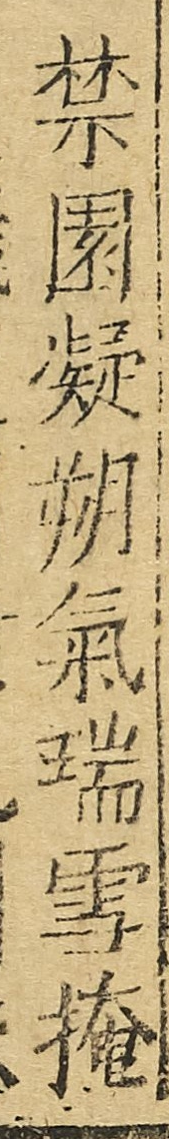禁園凝朔氣瑞雪掩
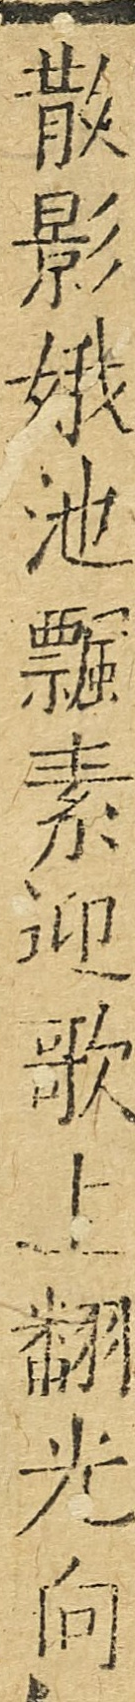散影娥池飄素迎歌上翻光向
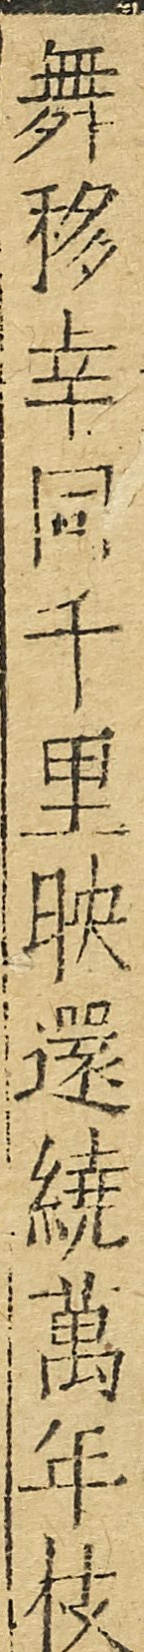舞移幸因千里映還繞萬年枝
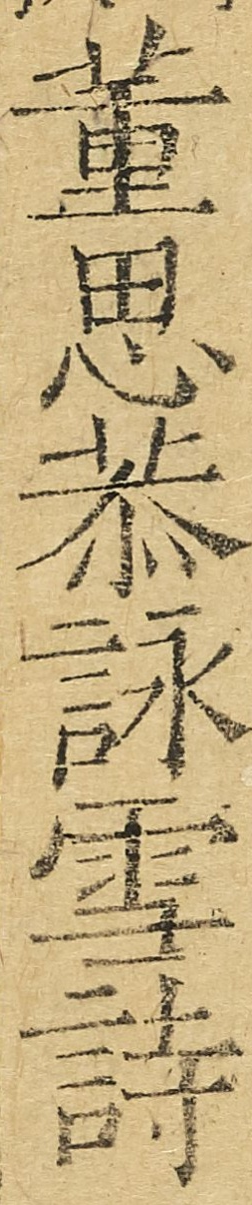董思恭詠雪詩
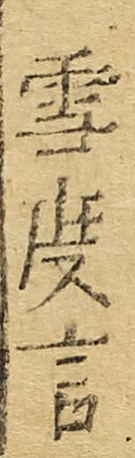雪度言
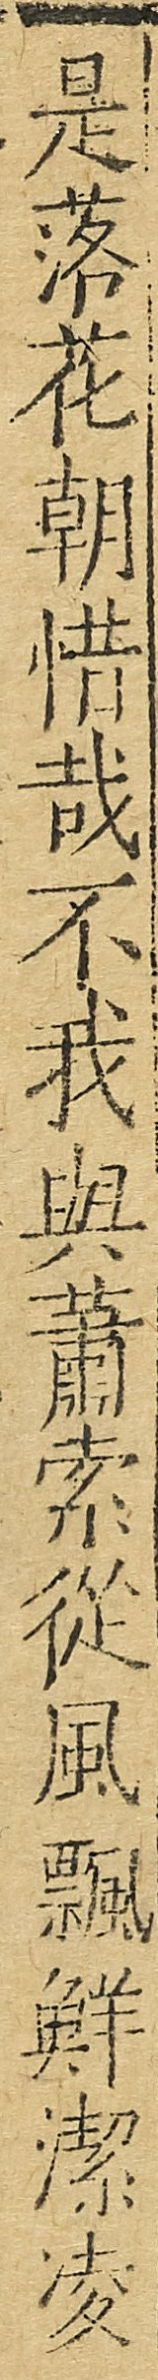是落花朝惜哉不我與蕭索從風飄鮮潔凌
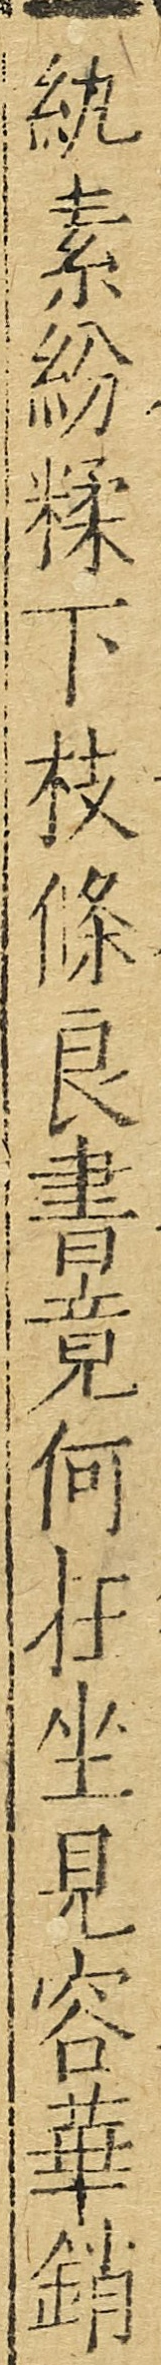紈素紛糅下枝條良書竟何在坐見容華銷
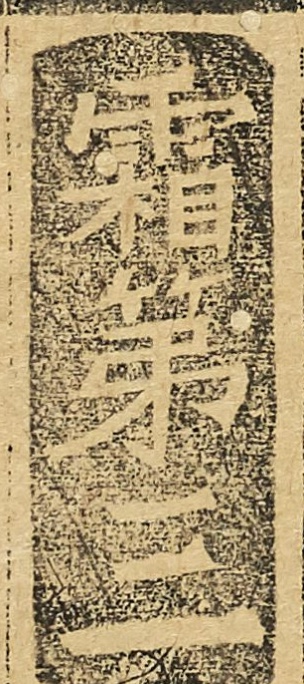霜第三
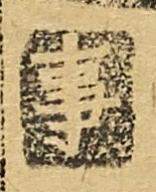事
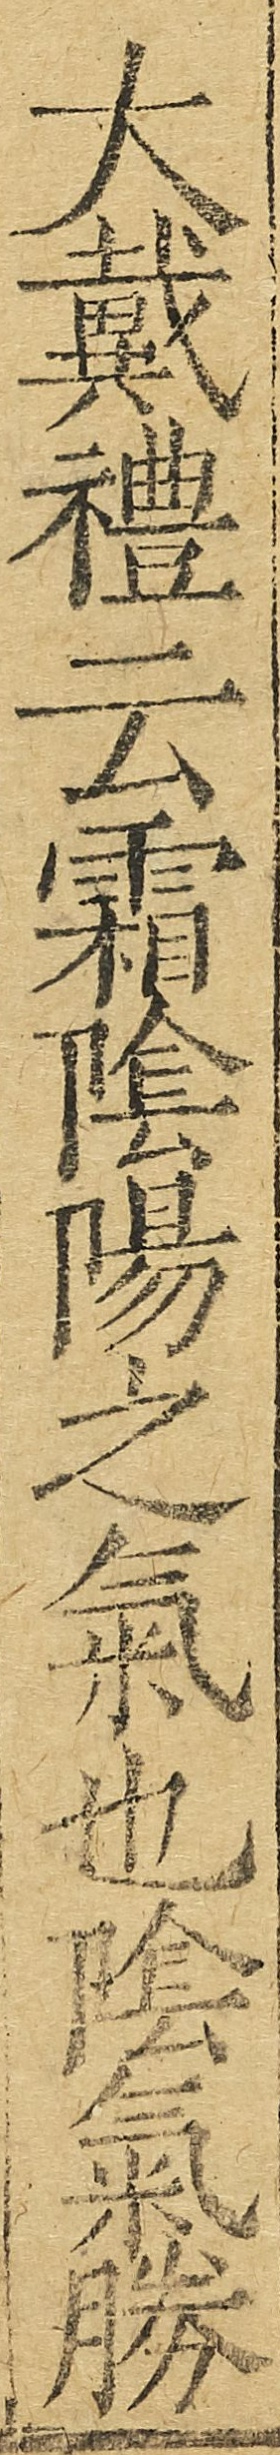大戴禮云霜陰陽之氣也陰氣勝
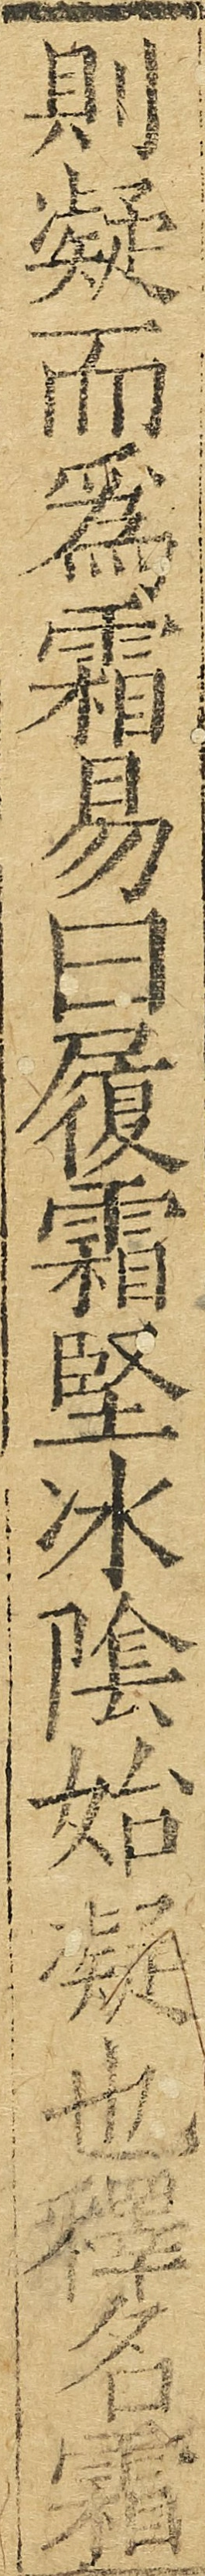則凝而爲霜易曰履霜堅冰陰始凝也釋名霜
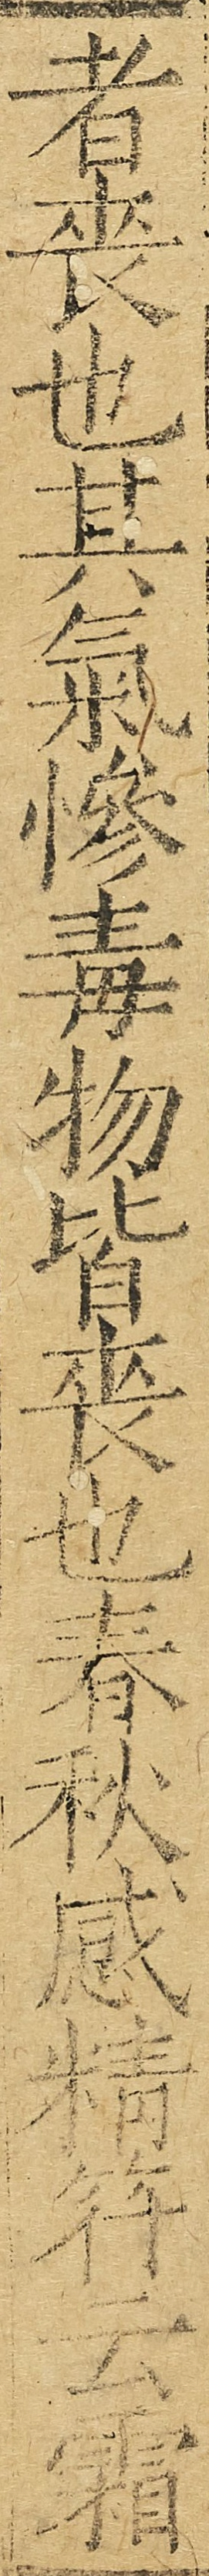者喪也其氣慘毒物皆喪也春秋感精符云霜
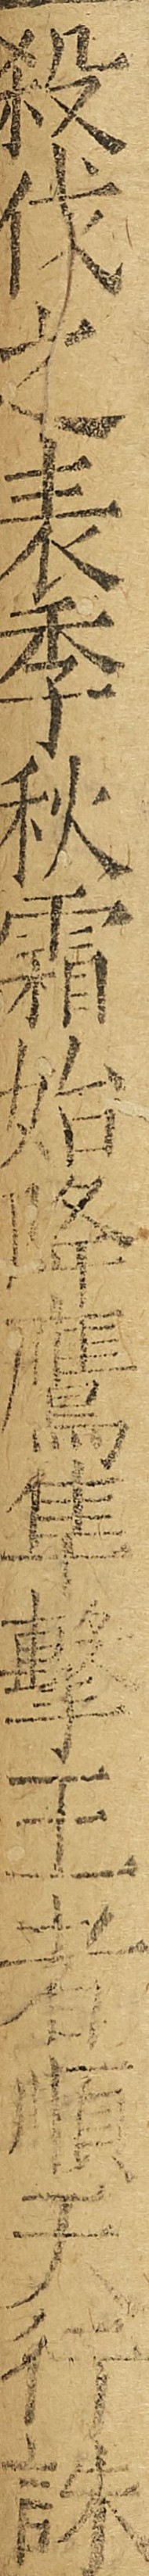殺伐之表季秋霜始降鷹隼擊王者順天行誅
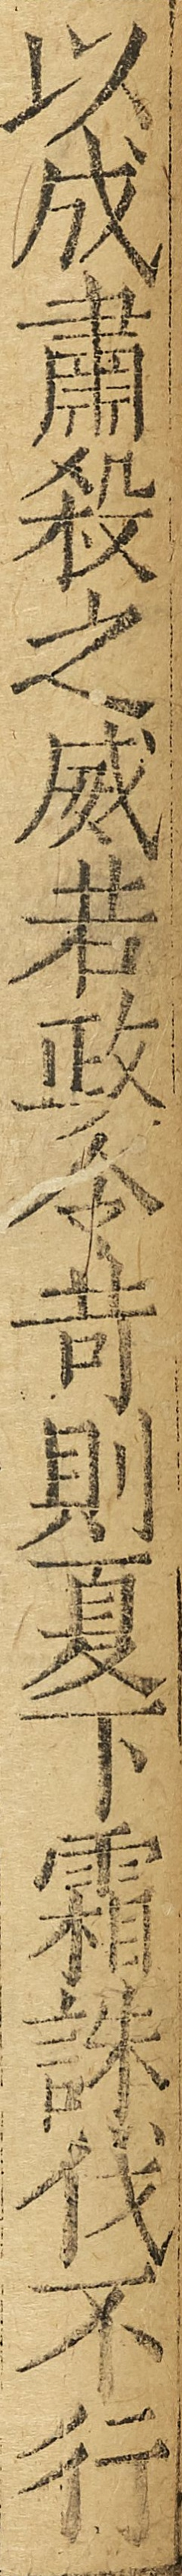以成肅殺之威若政令苛則夏下霜誅伐不行
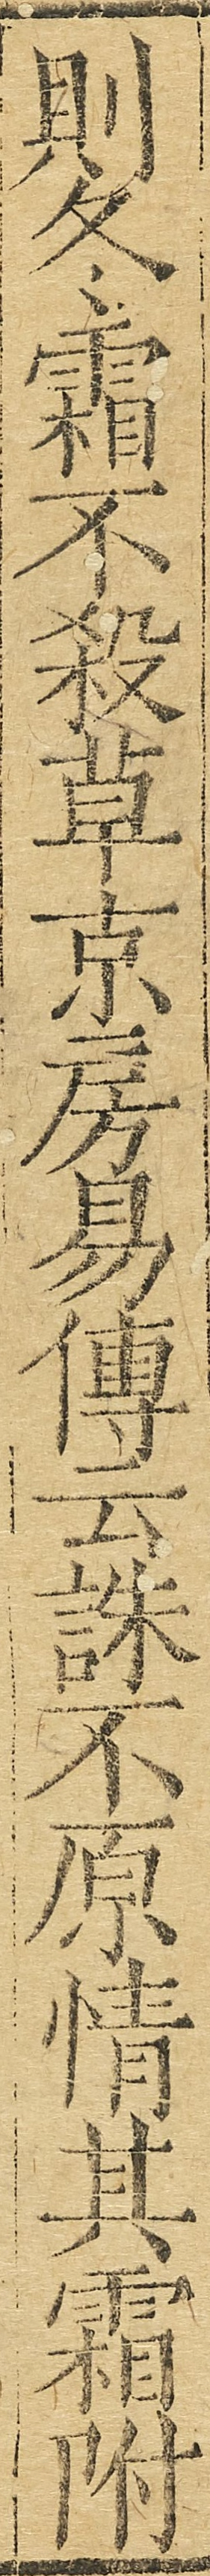則冬霜不殺草京房易傳云誅不原情其霜附
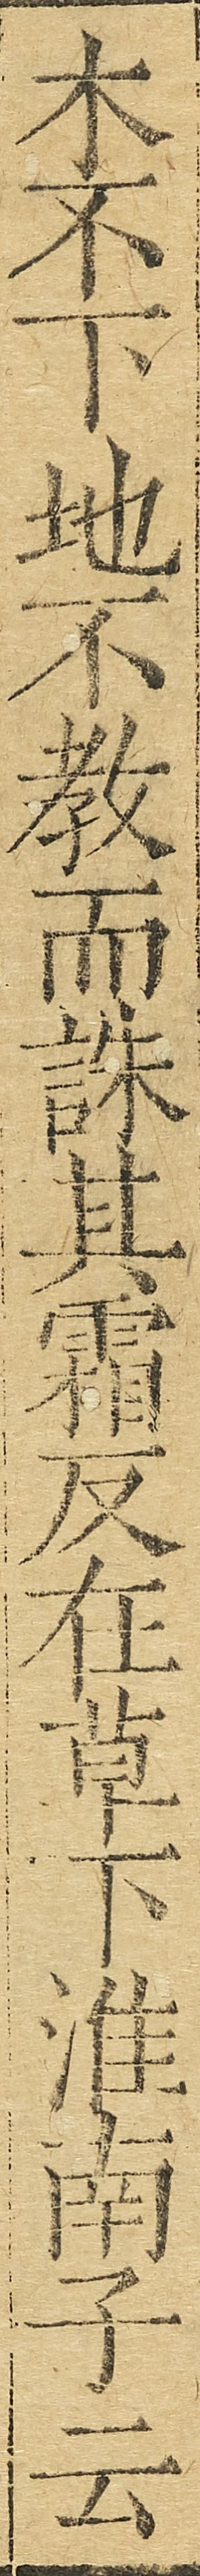木不下地不敎而誅其霜反在草下淮南子云
